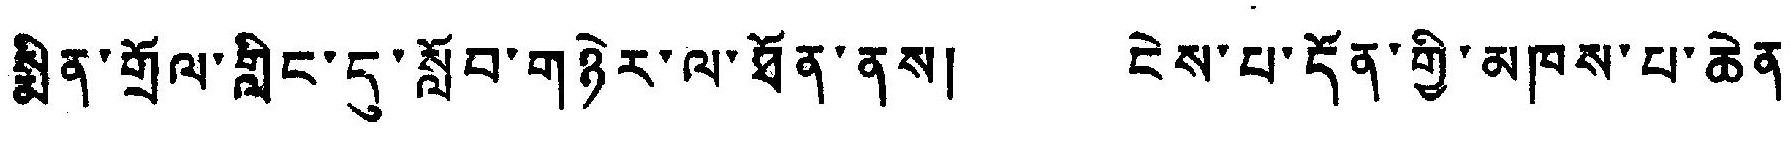སྨིན་གྲོལ་གླིང་དུ་སློབ་གཉེར་ལ་ཐོན་ནས། ངེས་པ་དོན་གྱི་མཁས་པ་ཆེན་
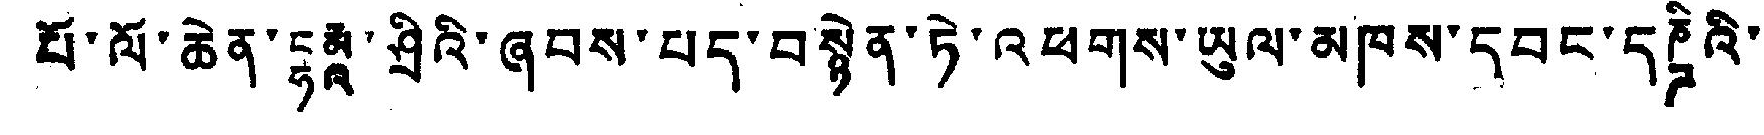པོ་ལོ་ཆེན་དྷརྨཱ་ཤྲིའི་ཞབས་པད་བསྙེན་ཏེ་འཕགས་ཡུལ་མཁས་དབང་དཎྜིའི་་
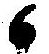6
